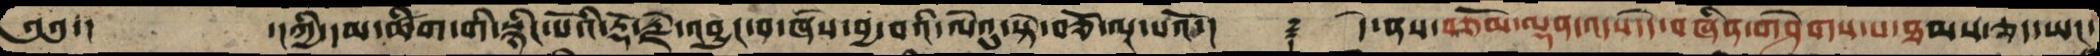༄༅་།   ་།ཀྱི་དམ་ཚིག་གི་སྙིང་པོའི་རྡོ་རྗེ་འབྱུང་བ་ཞེས་བྱ་བའི་ལེའུ་སྟེ་བཅོ་ལྔ་པའོ་།   ࿑   དེ་ནས་བཅོམ་ལྡན་འདས་དེ་བཞིན་གཤེགས་པ་ཐམས་ཅད་ཡང་
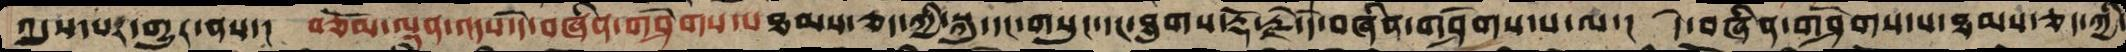འདུས་པར་གྱུར་ནས་།  བཅོམ་ལྡན་འདས་དེ་བཞིན་གཤེགས་པ་ཐམས་ཅད་ཀྱི་སྐུ་དང་གསུང་དང་ཐུགས་རྡོ་རྗེ་དེ་བཞིན་གཤེགས་པ་ལ་།  དེ་བཞིན་གཤེགས་པ་ཐམས་ཅད་ཀྱི་
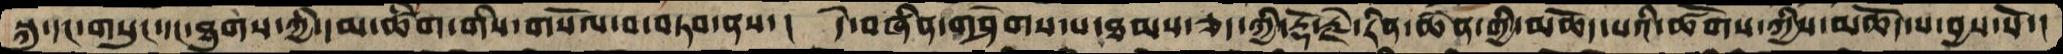སྐུ་དང་གསུང་དང་ཐུགས་ཀྱི་དམ་ཚིག་གིས་གསོལ་བ་བཏབ་ནས་།  དེ་བཞིན་གཤེགས་པ་ཐམས་ཅད་ཀྱི་རྡོ་རྗེ་རིན་ཆེན་གྱི་མཆོད་པའི་ཚོགས་ཀྱིས་མཆོད་པ་བྱས་སོ་།
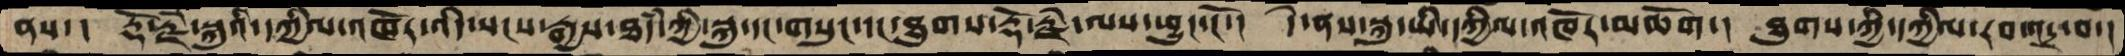ནས་།  རྡོ་རྗེ་སྐུའི་དཀྱིལ་འཁོར་འདི་སངས་རྒྱས་ཐདཾ་ཀྱི་སྐུ་དང་གསུང་དང་ཐུགས་རྡོ་རྗེ་ལས་ཕྱུང་ངོ་།  དེ་ནས་སྐུ་ཡི་དཀྱིལ་འཁོར་མཆོག་།  ཐུགས་ཀྱི་དཀྱིལ་རབ་འདྲ་བ་།
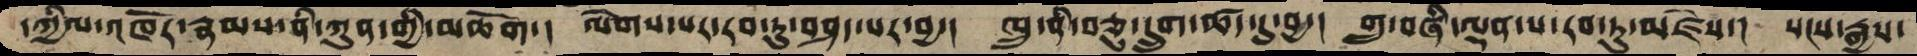དཀྱིལ་འཁོར་རྣམས་ནི་ཀུན་གྱི་མཆོག་།  ལེགས་པར་རབ་ཏུ་བཤད་པར་བྱ་།  ཁྲུ་ནི་བཅུ་དྲུག་ཚད་དུ་བྱ་།  གྲུ་བཞི་ལྡན་པ་རབ་ཏུ་མཛེས་།  སངས་རྒྱས་
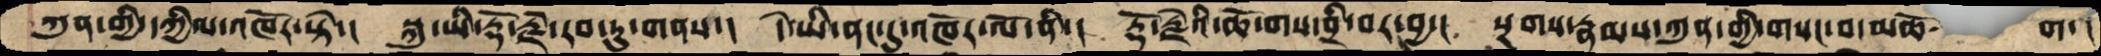ཀུན་གྱི་དཀྱིལ་འཁོར་སྟེ་།  སྐུ་ཡི་རྡོ་རྗེ་རབ་ཏུ་གནས་།  དེ་ཡི་ནང་དུ་འཁོར་ལོ་ནི་།  རྡོ་རྗེའི་ཆོ་གས་བྲི་བར་བྱ་།  སྔགས་རྣམས་ཀུན་གྱི་གསང་བ་མཆོ   ག་།
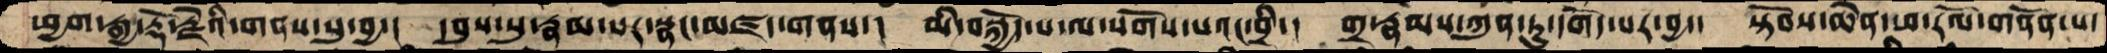ཕྱག་རྒྱ་རྡོ་རྗེའི་གནས་སུ་བྱ་།  དབུས་སུ་རྣམ་པར་སྣང་མཛད་གནས་།  མི་བསྐྱོད་པ་ལ་སོགས་པའང་བྲི་།  གྲ་རྣམས་ཀུན་ཏུ་དགོད་པར་བྱ་།  སྟོབས་ཆེན་ཕ་རོལ་གནོན་པ་
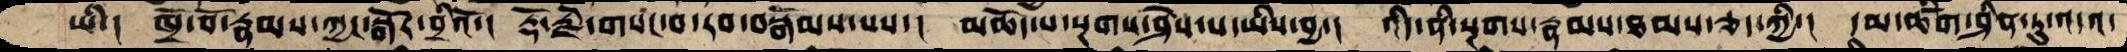ཡི་།  ཁྲོ་བོ་རྣམས་ཀྱང་སྒོར་བྲིའོ་།  རྡོ་རྗེ་གསང་བ་རབ་བསྒོམས་པས་།  མཆོད་པ་སྔགས་ཤེས་པ་ཡིས་བྱ་།  འདི་ནི་སྔགས་རྣམས་ཐམས་ཅད་ཀྱི་།  དམ་ཚིག་ཤིན་ཏུ་འདའ་
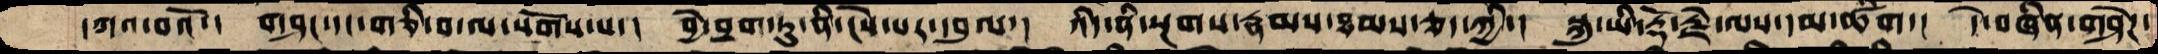དཀའ་བའོ་།  གཤང་དང་གཅི་བ་ལ་སོགས་པ་།  བྱེ་བྲག་ཏུ་ནི་ངེས་པར་དབུལ་།  འདི་ནི་སྔགས་རྣམས་ཐམས་ཅད་ཀྱི་།  སྐུ་ཡི་རྡོ་རྗེ་ལས་དམ་ཚིག་།  དེ་བཞིན་གཤེཌ་
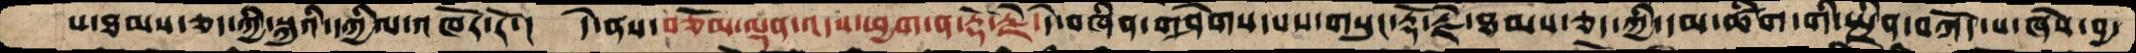པ་ཐམས་ཅད་ཀྱི་སྐུའི་དཀྱིལ་འཁོར་རོ་།  དེ་ནས་བཅོམ་ལྡན་འདས་ཕྱག་ན་རྡོ་རྗེ་དེ་བཞིན་གཤེགས་པས་གསུང་རྡོ་རྗེ་ཐམས་ཅད་ཀྱི་དམ་ཚིག་གི་སྤྲིན་བཀོད་པ་ཞེས་བྱ་
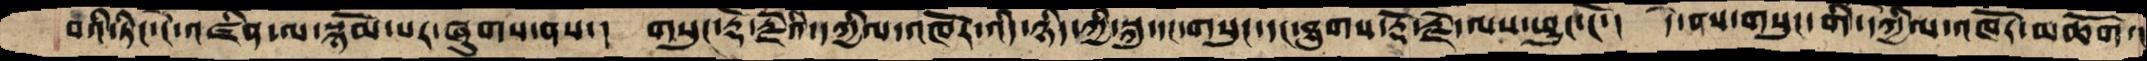བའི་ཏིང་ངེ་འཛིན་ལ་སྙོམས་པར་ཞུགས་ནས་།  གསུང་རྡོ་རྗེའི་དཀྱིལ་འཁོར་འདི་ཉིད་ཀྱི་སྐུ་དང་གསུང་དང་ཐུགས་རྡོ་རྗེ་ལས་ཕྱུང་ངོ་།  དེ་ནས་གསུང་གི་དཀྱིལ་འཁོར་མཆོག་།
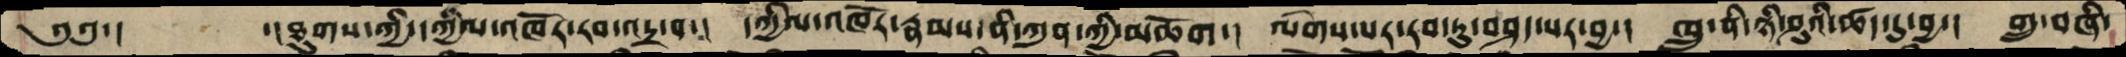༄༅་།     ་།ཐུགས་ཀྱི་དཀྱིལ་འཁོར་རབ་འདྲ་བ་།   དཀྱིལ་འཁོར་རྣམས་ནི་ཀུན་ཀྱི་མཆོག་།  ལེགས་པར་རབ་ཏུ་བཤད་པར་བྱ་།  ཁྲུ་ནི་ཉི་ཤུའི་ཚད་དུ་བྱ་།  གྲུ་བཞི་
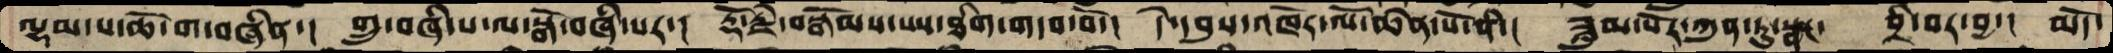ལྷམ་པ་ཆོ་ག་བཞིན་།  གྲུ་བཞི་པ་ལ་སྒོ་བཞི་པར་།  རྡོ་རྗེ་བསྒོམས་པས་ཐིག་གདབ་བོ་།  དེ་དབུས་འཁོར་ལོ་ཆེན་པོ་ནི་།  ཟླུམ་པོར་ཀུན་ཏུ་སྣང་    བྲི་བར་བྱ་།  མདོ་
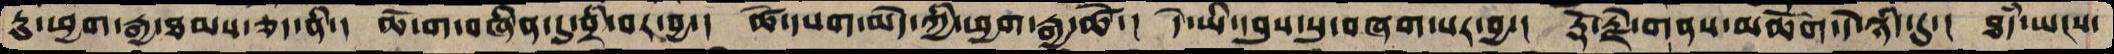ཏུ་ཕྱག་རྒྱ་ཐམས་ཅད་ནི་།  ཆོ་ག་བཞིན་དུ་བྲི་བར་བྱ་།  ཚེ་དཔག་མེད་ཀྱི་ཕྱག་རྒྱ་ཚེ་།  དེ་ཡི་དབུས་སུ་བཞག་པར་བྱ་།  རྡོ་རྗེ་གནས་མཆོག་དེ་ཉིད་དུ་།  ཐདཾ་ཡངས་
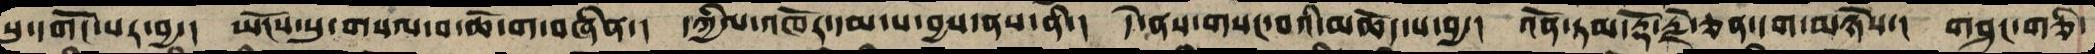སུ་གོང་པར་བྱ་།  ཡོངས་སུ་གསལ་བ་ཆོ་ག་བཞིན་།  དཀྱིལ་འཁོར་དམ་པ་བྱས་ནས་ནི་།  དེ་ནས་གསང་བའི་མཆོད་པ་བྱ་།  འོན་ཏམ་རྡོ་རྗེ་ཅན་དག་མཉེས་།  གཤང་གཅི་
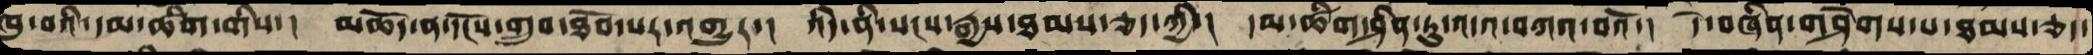ཁུ་བའི་དམ་ཚིག་གིས་།  མཆོད་ན་དངོས་གྲུབ་ཐོབ་པར་འགྱུར་།  འདི་ནི་སདྱས་ཐམས་ཅད་ཀྱི་།  དམ་ཚིག་ཤིན་ཏུ་འདའ་བཀའ་བའོ་།  དེ་བཞིན་གཤེགས་པ་ཐམས་ཅད་
